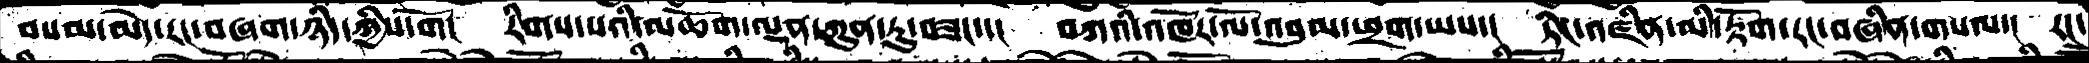བསམ་མེད་རང་བཞག་ཉིད་ཀྱིས་གོ།  རིགས་པའི་མཆོག་ལྡན་ཀུན་ཏུ་བཟང་་།  བཀའི་འཁོར་ལོ་འབུམ་ཕྲག་ཡས་།  ཏིང་འཛིན་མི་རྟོག་རང་བཞིན་གསལ་།  རང་
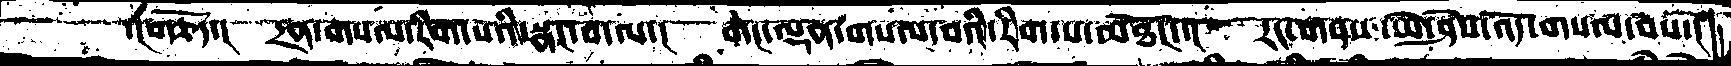་།གཅོད་།  དྲན་གསལ་རིག་པའི་སྣང་བ་ལ་།  གང་ལྡན་གསལ་བའི་རིག་པ་མཐོང་་།   རང་གནས་ཡེ་ཤེས་འོད་གསལ་བས་ང
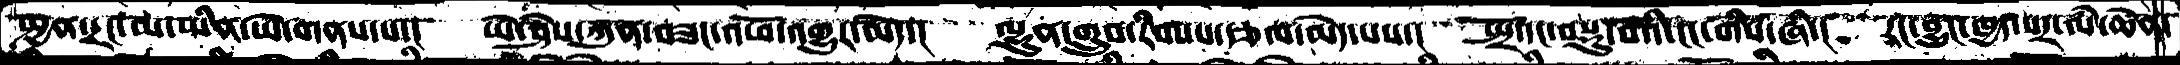སྤྱན་དྲང་མ་ཡིན་ཡེ་གནས་པ་།  ཡེ་ཤེས་ཀུན་བཟང་འཕོ་འགྱུར་མེད་།  ལྷུན་གྲུབ་རིག་པ་རྩལ་མེད་པས་།  སྤྲོས་དང་བསྡུ་བའི་ངང་གིས་ཞི་།  རང་བྱུང་ཁྱད་པར་ལཾ་ཆེན་
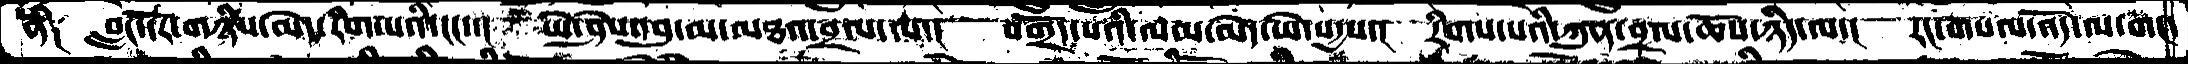ནི༑   བླང་དོར་གཉིས་མེད་རིག་པའི་ངང་་།  ཡེ་ཤེས་དབུ་མ་མཐའ་བྲལ་ལ་།  བགྲོད་པའི་ལམ་མེད་ཡེ་སདྱས་།  རིགས་པའི་ཀུན་བྲལ་ཆོས་ཉིད་ལ་།  རང་གསལ་འོད་ལ་གང་
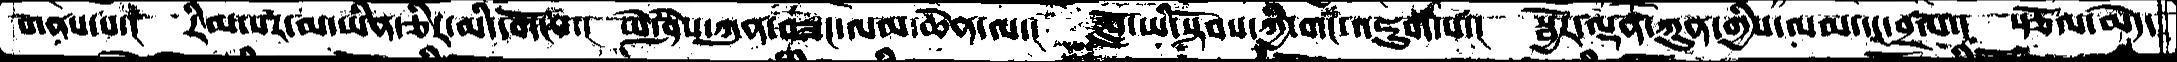གནས་པ་།  རིམ་པར་མ་་ཡིན་ཅིར་མི་དགོངས་།  ཡེ་ཤེས་ཀུན་བཟང་ལམ་ཆེན་ལ་།  བློ་ཡི་སྟོབས་ཀྱི་གང་འཇུག་པ་།  སྦྱོར་ལྡན་ཀུན་གྱིས་ལམ་དང་བྲལ་།  སྩོལ་མེད་
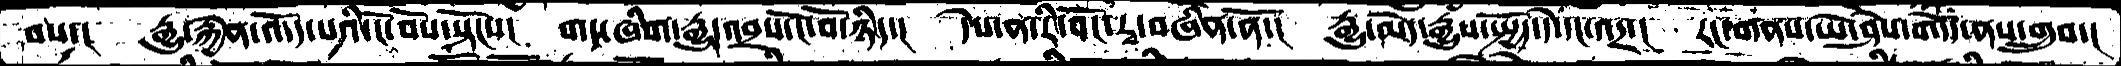བས་།  རྒྱུ་རྐྱེན་འདོད་པའི་ངོ་བོས་སྟོང་་།  གང་ཞིག་རྒྱུ་འབྲས་ངོ་བོ་ཉིད་།  དེས་ན་རི་བོང་རྭ་བཞིན་ནོ་།  རྒྱུ་མེད་རྒྱུས་སྤྱོད་དེ་དང་འདྲ་།  རང་གནས་ཡེ་ཤེས་གདོད་ནས་གྲུབ་།
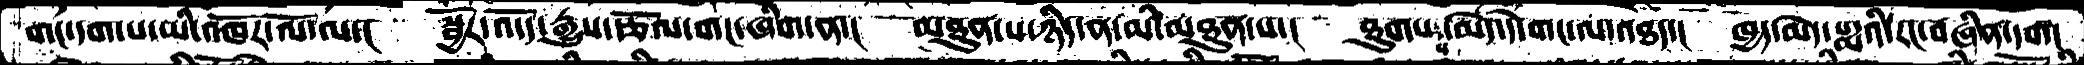གང་དག་པ་ཡི་འཁོར་ལོ་ལ་།   སྦྱོར་འདོད་རྒྱུས་རྩོལ་གང་ཞིག་ན་།  མཐུན་པ་ཉིད་ན་མི་མཐུན་པ་།  ཐུགས་མེད་དེ་གང་ལ་འཐད་།  ཁྱད་མེད་པདྨའི་རང་བཞིན་དག།
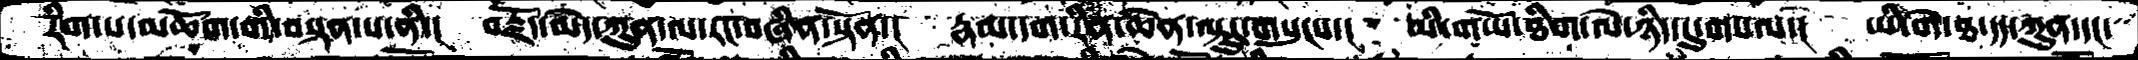རིག་པ་མཆོག་གི་བསྟན་པ་ནི་།  བརྗོད་མེད་ཀུན་ལ་རང་བཞིན་སྟོན་། རྣམ་དག་་རིན་ཆེན་ལྟུར་གསུངས་།  མི་གཡོ་ཐིག་ལེ་ཉིད་དུ་གསལ་།  ཡི་གེ་ཐ་དད་ཀུན་དང་
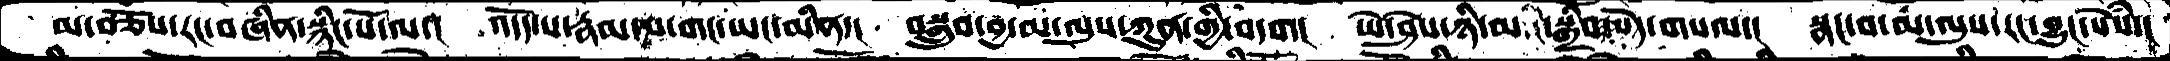མ་བཅོས་རང་བཞིན་སྙིང་པོ་ལ་།   འདོད་པ་རྣམ་པ་གང་ཡང་མིན་།  བསྒྲུབ་བྱ་མ་ལུས་ཀུན་གྱི་བདག།   ཡེ་ཤེས་ཉི་མའི་སྒྲིབ་སོད་གསལ་།   སྣང་བ་མ་ལུས་རང་བྱུང་སེཾས་།
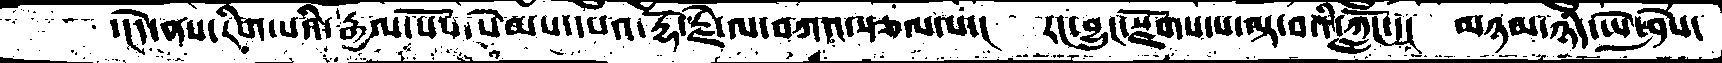་།དེ་ནས་རིག་པའི་རྒྱལ་པོས་སེམས་དཔའ་རྡོ་རྗེ་ལ་བཀའ་སྩལ་པ་།   རང་བྱུང་སྫོགས་པ་ལྟ་བའི་ཀློང་་།  མཉམ་ཉིད་ཡེ་ཤེས་
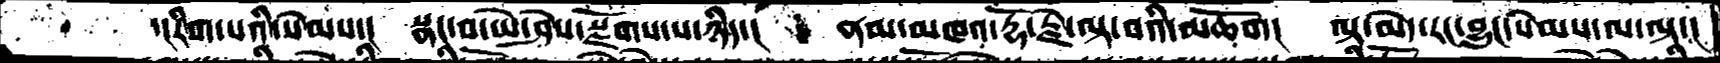་།རིག་པའི་སེམས་།   སྣང་བ་ཡེ་ཤེས་སྫོགས་པ་ཉིད་།  ནམ་མཁའ་རྡོ་རྗེ་ལྟ་བའི་མཆོག།  ལྟ་མེད་རང་བྱུང་སེམས་ལ་ལྟ་།
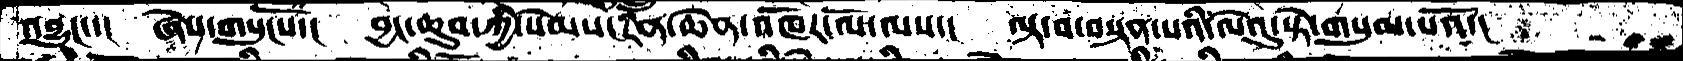འབྱུང་་།  ཞེས་གསུངསོ་།   བྱང་ཆུབ་ཀྱི་སེམས་རིན་ཆེན་འཁོར་ལོ་ལས་།  ལྟ་བ་བསྟན་པའི་ལེའུ་སྟེ་གསུམ་པའོ་།
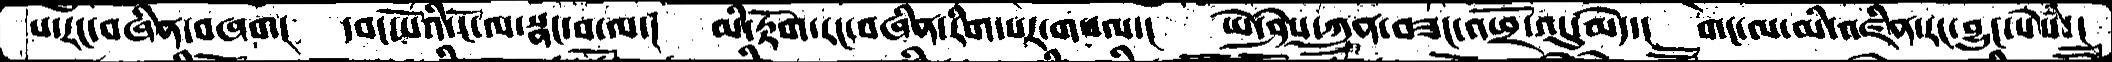པ་རང་བཞིན་བཞག།   དབང་པོའི་ངོ་ལ་སྣང་བ་ལ་།   མི་རྟོག་རང་བཞིན་རིག་པར་གསལ་།   ཡེ་ཤེས་ཀུན་བཟང་འཕྲོ་འདུ་མེད་།   གང་ལ་མི་འཛིན་རང་བྱུང་སེཾས་།
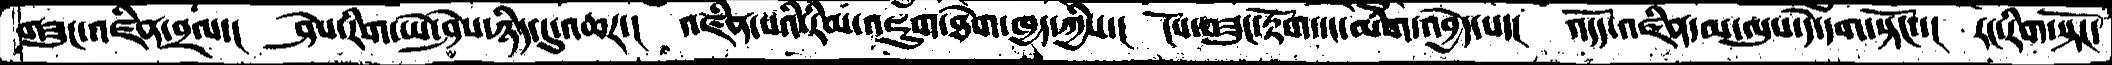གཟུང་འཛིན་བྲལ་།   ཤེས་རིག་ཡེ་ཤེས་ཉིད་དུ་འཆར་།    འཛིན་པའི་རིམ་འཇུག་ཐེག་ཁྱད་ཀྱིས་།   ངོས་བཟུང་རྟོག་དང་མིག་འབྱེད་པ་།   འདོད་འཛིན་མ་ལུས་དེ་དག་སྟོང་།   རང་རིག་སྟོང་
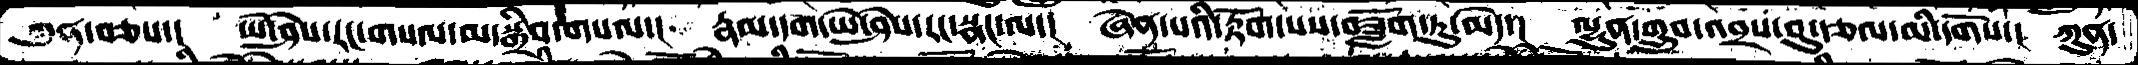ཀུན་བཅས་།   ཡེ་ཤེས་རང་གསལ་མ་སྒྲིབ་གསལ་།  རྣམ་དག་ཡེ་ཤེས་རང་སྣང་ལ་།  ཞེན་པའི་རྟོག་པས་བཟློག་ཏུ་མེད་།  ལྷུན་གྲུབ་འབྲས་བུ་རྩལ་མི་དགོས་།  ཀུན་
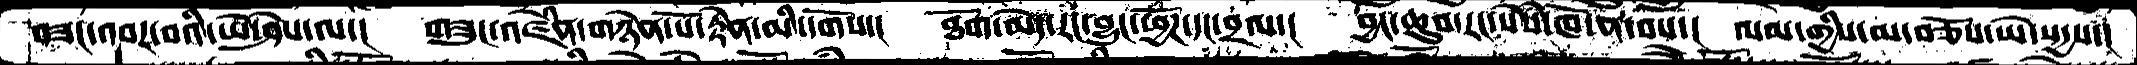བཟང་འབར་བའི་ཡེ་ཤེས་ལ་།   གཟུང་འཛིན་གཉེན་པོ་རྟེན་མི་དགོས་།  ཐོག་མེད་རང་བྱུང་ཕྱོཌ་དང་བྲལ་།  བྱང་ཆུབ་རང་སེཾས་ཁོ་ན་བས་།  ལམ་གྱི་མ་བཅོས་ཡེ་སདྱས་།
